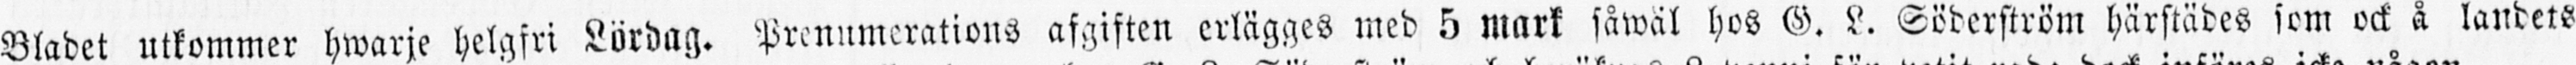Bladet utkommer hwarje helgfri Lördag. Prenumerations afgiften erlägges med 5 mark såwäl hos G. L. Söderström härstädes som ock å landets
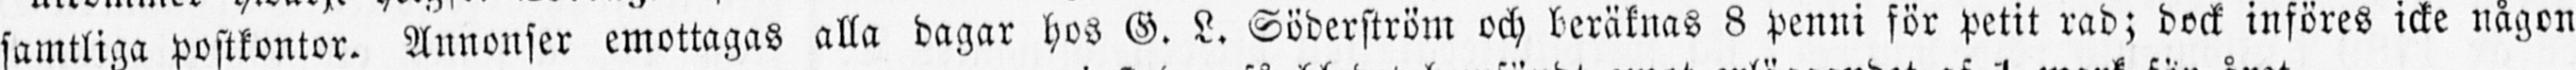samtliga postkontor. Annonser emottagas alla dagar hos G. L. Söderström och beräknas 8 penni för petit rad; dock införes icke någon
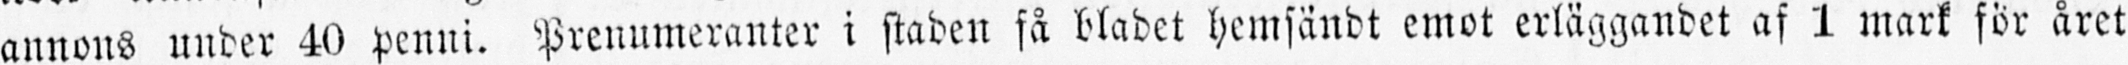annons under 40 penni. Prenumeranter i staden få bladet hemsändt emot erläggandet af 1 mark för året
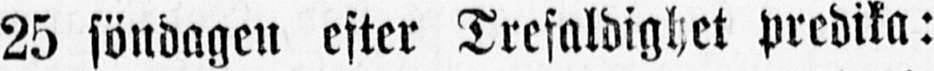25 söndagen efter Trefaldighet predika:
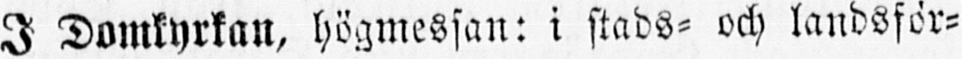I Domkyrkan, högmessan: i stads- och landsför-
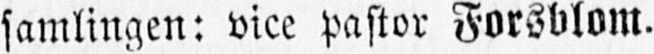samlingen: vice pastor Forsblom.
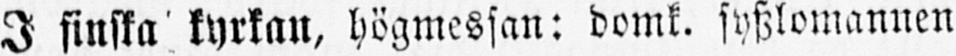I finska kyrkan, högmessan: domk. syszlomannen
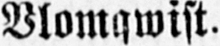Vlomqwist.
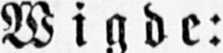Wigde:
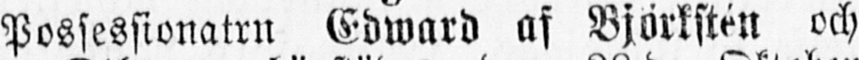Possessionatrn Edward af Björkstén och
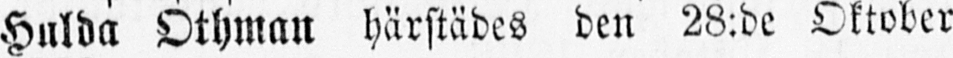Hulda Othman härstädes den 28:de Oktober
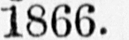1866.
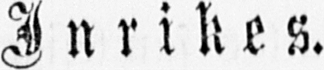Inrikes.
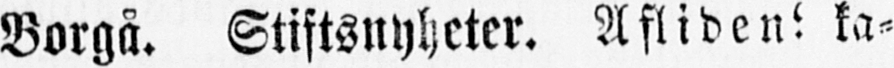Borgå. Stiftsnyheter. Afliden: ka-
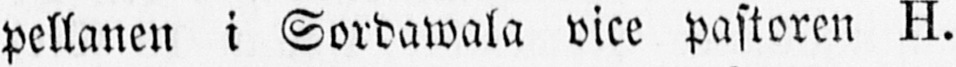pellanen i Sordawala vice pastoren H.
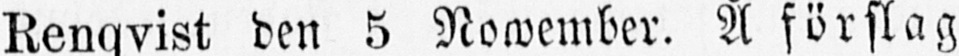Renqvist den 5 Nowember. Å förslag
